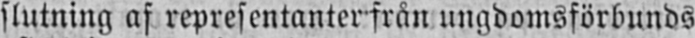slutning af representanter från ungdomsförbunds
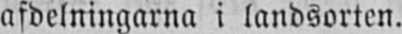afdelningarna i landsorten.
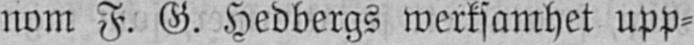nom F. G. Hedbergs werksamhet upp-
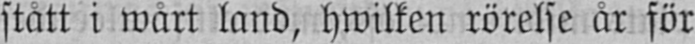stått i wårt land, hwilken rörelse år för
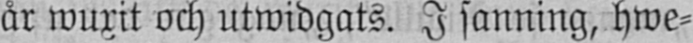år wuxit och utwidgats. I sanning, hwe-
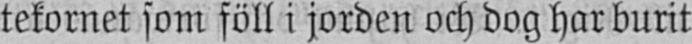tekornet som föll i jorden och dog har burit
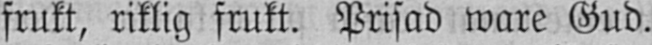frukt, riklig frukt. Prisad ware Gud.
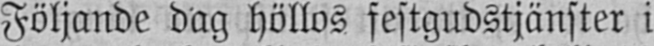Följande dag höllos festgudstjänster i
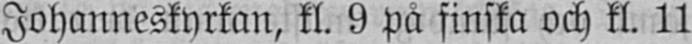Johanneskyrkan, kl. 9 på finska och kl. 11
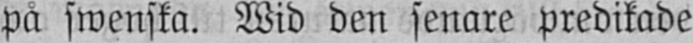på swenska. Wid den senare predikade
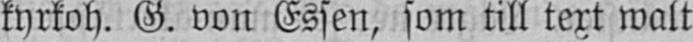kyrkoh. G. von Essen, som till text walt
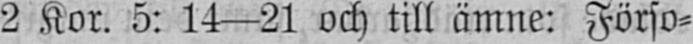2 Kor. 5: 14 —21 och till ämne: Förso-
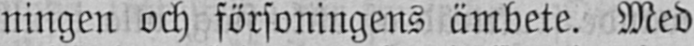ningen och försoningens ämbete. Med
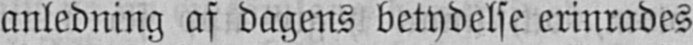anledning af dagens betydelse erinrades
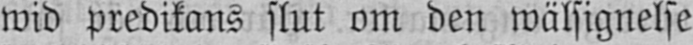wid predikans slut om den wälsignelse
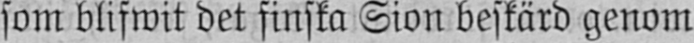som blifwit det finska Sion beskärd genom
